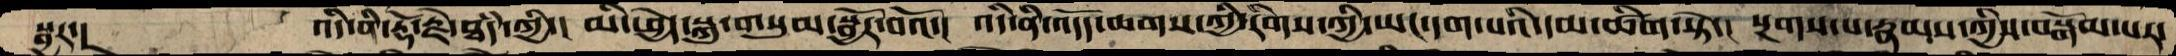སྦྱར་།    འདི་ནི་རྡོ་རྗེ་ཐཾད་ཀྱི་།  མི་ཕྱེད་སྐུ་གསུམ་སྦྱོར་བའོ་།  འདི་ནི་འདོད་ཆགས་ཀྱི་རིགས་ཀྱི་ཡང་དག་པའི་དམ་ཚིག་སྟེ་།  སྔགས་པ་རྣམས་ཀྱིས་བསྒོམ་པར་
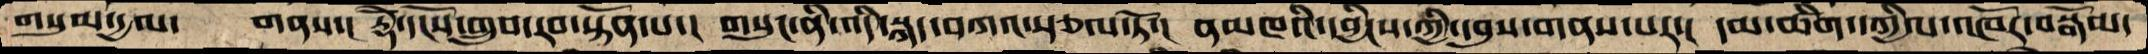གསུམ་དྱལ་  གནས་།  རྡོེ་དངོས་གྲུབ་རབ་སྟོན་པ་།  གསུང་ནི་འདི་སྐད་བཀའ་སྩལ་ཏོ་།  ནམཁའི་དབྱིངས་ཀྱི་དབུས་གནས་པར་།  དམ་ཚིག་དཀྱིལ་འཁོར་བསྒོམ་
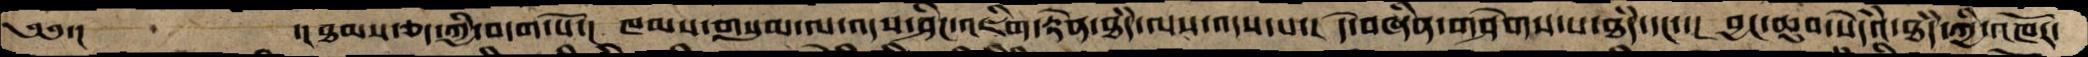༄༅་།      ་།ཐམས་ཅད་ཀྱི་བདག་པོ་།  ཁམས་གསུམ་ལ་འདས་ཤིང་འཇིག་རྟེན་ཐཾད་ལས་འདས་པ་།  དེ་བཞིན་གཤེགས་པ་ཐཾད་དང་་།  བྱང་ཆུབ་སེདཾའ་ཐཾད་ཀྱི་འཁོར་
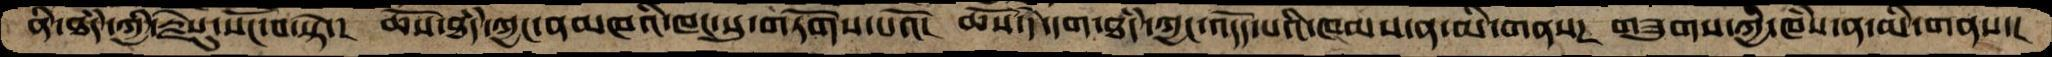ནི་ཐཾད་ཀྱི་རྗེས་སུ་སོང་བ་སྟེ་།  ཆོས་ཐཾད་ཀྱང་ནམཁའི་ཁང་སུ་གཏོགས་པའོ་།  ཆོས་དེ་དག་ཐཾད་ཀྱང་འདོད་པའི་ཁམས་ན་མི་གནས་།  གཟུགས་ཀྱི་ཁཾས་ན་མི་གནས་།
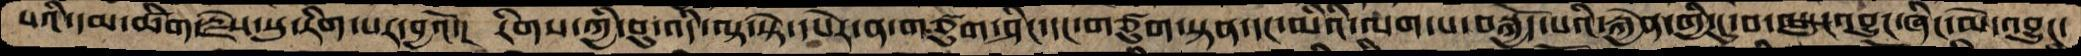པའི་དམ་ཚིག་རྗེས་སུ་རིག་པར་བྱའོ་། རིགས་ཀྱི་བུ་འདི་ལྟ་སྟེ་དཔེར་ན་གཙུག་ཤིང་དང་གཙུག་སྟན་དང་མིའི་ལག་པ་བསྐྱོད་པའི་རྐྱེན་གྱི་དུ་བ་མདུང་འབྱུང་ཞིང་མེ་འབྱུང་
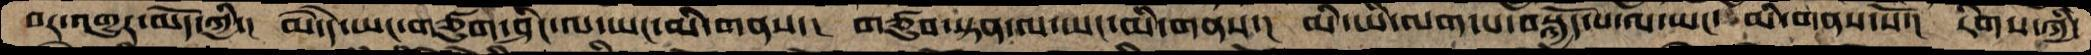བར་འགྱུར་མོད་ཀྱི་། མེ་དེ་ཡང་གཙུག་ཤིང་ལ་ཡང་མི་གནས་།  གཙུབ་སྟན་ལ་ཡང་མི་གནས་།  མི་ཡི་ལག་པ་བསྐྱོད་པ་ལ་ཡང་ མི་གནས་སོ་།  རིགས་ཀྱི་
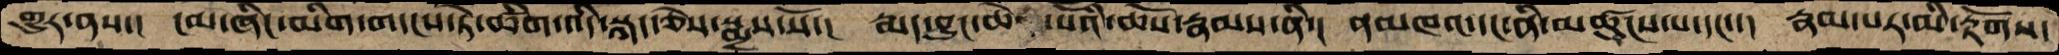གྱུར་ནས་།  ངམ་ཞིང་མིག་གདངས་ཏེ་ཚིག་འདི་སྐད་ཅེས་སྨྲས་སོ་།  རྨད་བྱུང་ཆེན་པོའི་ཆོས་རྣམས་ནི་།  ནམཁའ་དང་ནི་མཚུངས་པ་དང་་།  རྣམ་པར་མི་རྟོགས་
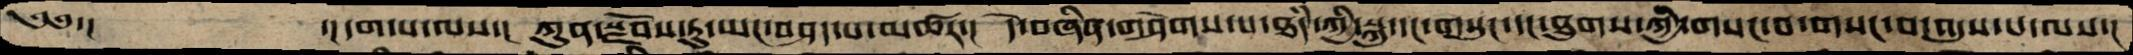༄༅་།          ་།དག་པ་ལས་།  ཀུན་སྫོབས་ཏུ་ཡང་བཤད་པ་མཚར་།  དེ་བཞིན་གཤེགས་པ་ཐཾད་ཀྱི་སྐུ་དང་གསུང་དང་ཐུགས་ཀྱི་གསང་བ་གསང་བ་འདུས་པ་ལས་།
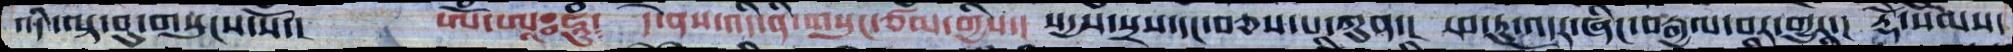འདི་ལྟ་བུ་གསུངས་སོ་།  ཨོཾ་ཨཱཿཧཱུཾ།  དེ་ནས་འདི་ནི་གསུང་ཙམ་གྱིས་།  སདྱས་སྲས་དང་བཅས་པ་ཀུན་།  རབ་ཏུ་འདར་ཞིང་བརྒྱལ་བར་གྱུར་།  རྡོེ་སེམས་
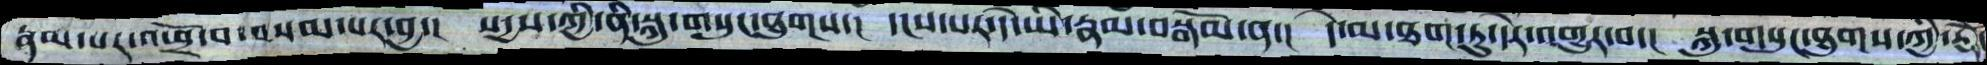རྣམ་པར་འཕྲོ་བ་བསམ་པར་བྱ་།  སདྱས་ཀྱི་ནི་སྐུ་གསུང་ཐུགས་།  དངས་པར་དེ་ཡི་རྣམ་བསྒོམ་ན་།  དེ་མ་ཐག་ཏུ་དེར་འགྱུར་བ་།  སྐུ་གསུང་ཐུགས་ཀྱི་རྡོེ་
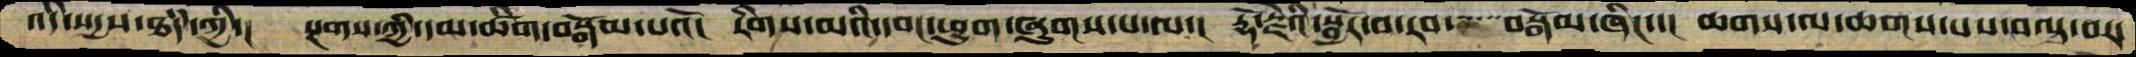འདི་སདྱས་ཐཾད་ཀྱི་།  སྔགས་ཀྱི་དམ་ཚིག་བསྒོམ་པའོ།  རིགས་མའི་དབང་ཕྱུག་ཞུགས་པ་ལ་།  རྡོ་རྗེའི་སྦྱོར་བ་རབ་་་་་་བསྒོམ་ཞིང་་། ཆགས་ལ་ཆགས་པས་བལྟ་བར་
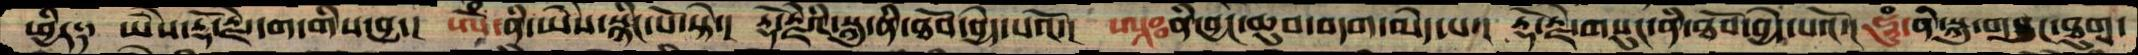ཕྱིར༑  ཡཻས་རྡོ་རྗེ་དག་གིས་བྱུང་།  ཨོཾ་ནི་ཡཻས་སྙིང་པོ་སྟེ་།  རྡོ་རྗེའི་སྐུ་ནི་ཐོབ་བྱེད་པའོ་།  ཨཱཿནི་བྱང་ཆུབ་བདག་མེད་པ་།  རྡོ་རྗེ་གསུང་ནི་ཐོབ་བྱེད་པའོ་།  ཧཱུཾ་ནི་སྐུ་གསུང་ཐུགས་
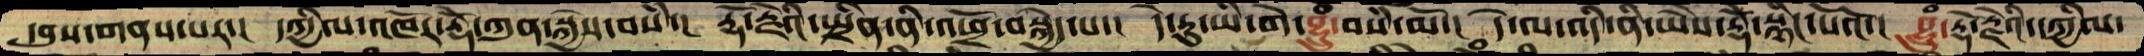དབུས་གནས་པར་།  དཀྱིལ་འཁོར་རྡོེ་ཀུན་སྐྱེས་བསཾ་།  རྡོ་རྗེའི་སྤྲིན་ནི་འཕྲོ་བསྐྱེད་པ་།  དེ་རུ་ཡི་གེ་བྷྲུཾ་བསཾ་མོ་།  དེ་ལ་འདི་ནི་ཡཻས་རྡོེ་སྙིང་པོའོ་།  བྷྲུཾ་རྡོ་རྗེའི་དཀྱིལ་
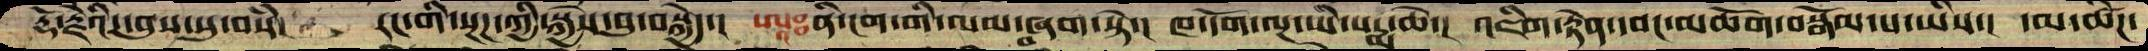རྡོ་རྗེའི་དབུས་སུ་བསཾ་  རང་གི་སྔཌ་ཀྱི་སྐྱེས་བུ་བསྐྱེད་།  ཨཱཿནི་ངག་གི་ལམ་བཞག་སྟེ་།  ཁ་དོག་ལྔ་ཡི་པདྨ་ཆེ་། འཇིག་རྟེན་དབང་མཆོག་བསྒོམ་པ་ཡིས་།  དམ་ཚིཌ་
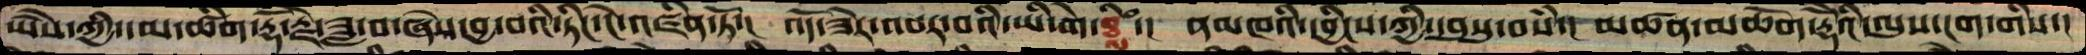ཡཻས་ཀྱི་དམ་ཚིག་རྡོ་རྗེ་ཟླ་བ་ཞེས་བྱ་བའི་ཏིང་ངེ་འཛིན་ཏོ་།  འོད་ཟེར་འབར་བའི་ཡི་གེ་ཐླིཾ་།  ནམཁའི་དབྱིངས་ཀྱི་དབུསུ་བསཾ་།  མཚན་མཆོག་རྡོེའི་ལུས་ངག་གིས་།
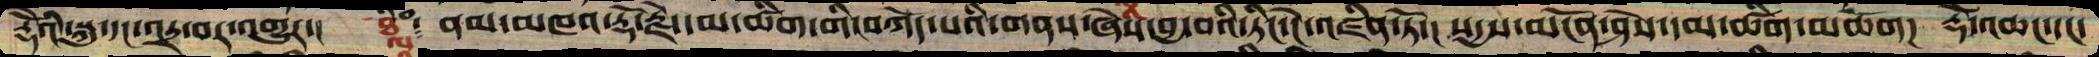རྡོེའི་སྐུ་དང་འདྲ་བར་འགྱུར་།  ཐླིཾ༴ ནམ་མཁའ་རྡོ་རྗེ་དམ་ཚིག་གི་བཀོད་པའི་གནས་ཞེས་བྱ་བའི་ཏིང་ངེ་འཛིན་ཏོ་། སདྱས་མངོན་ཤེས་དམ་ཚིག་མཆོག།  རྡོེ་འཆང་དང་
